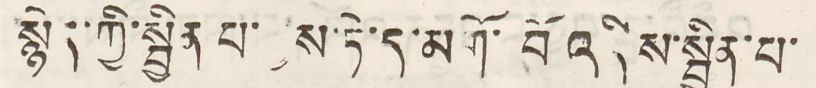སྙེད་ཀྱི་སྦྱིན པ་བྱས་ཏེ་ད་མགོ་བོ་འདིས་སྦྱིན་པ་
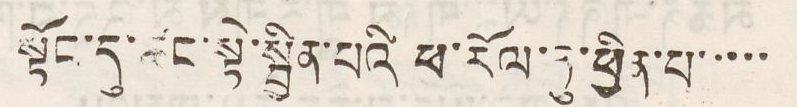སྙོང་དུ་ཚང་སྟེ་སྦྱིན་པའི ཕ་རོལ་རུ་ཕྱིན་པ་་་་་
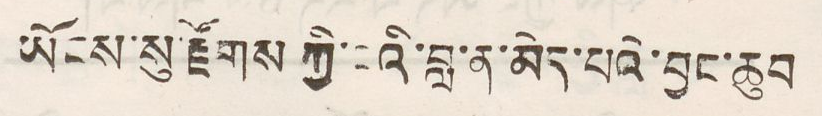ཡོངས་སུ་རྫོགས ཀྱི་ངའི་བླ་ན་མེད་པའི་བྱང་ཆུབ
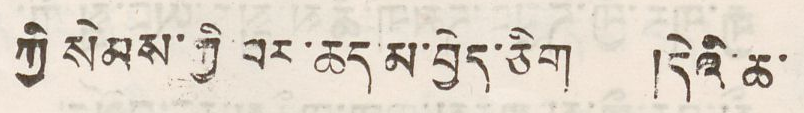ཀྱི སེམས་ཀྱི་བར་ཆད་མ་བྱེད་ཅིག །དེའི་ཆ་
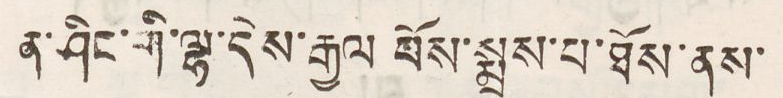ན་ཤིང་གི་ལྷ་དེས་རྒྱལ པོས་སྨྲས་པ་ཐོས་ནས་
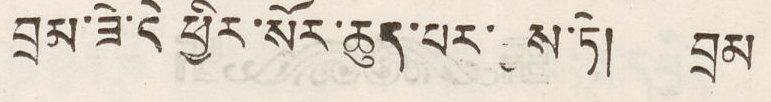བྲམ་ཟེ་དེ ཕྱིར་སོར་ཆུད་པར་བྱས་ཏོ། བྲམ
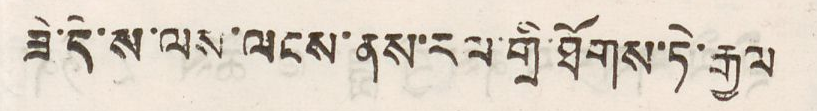སེ་དེ་ས་ལས་ལངས་ནས་རལ་གྲི ཐོགས་ཏེ་རྒྱལ
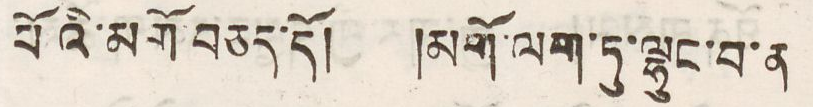པོའི་མགོ་བཅད་དོ། །མགོ་ལག་ཏུ་ལྷུང་བ་ན
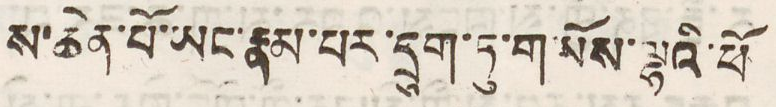ས་ཆེན་པོ་ཡང་རྣམ་པར་དྲུག་ཏུ་གཡོས་ལྷའི་ཕོ
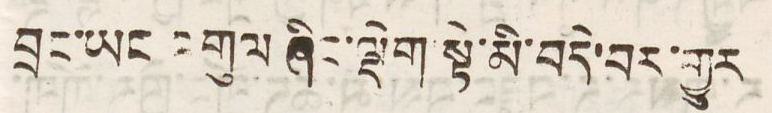བྲང་ཡང འགུལ་ཞིང་སྡེག་སྟེ་མི་བདེ་བར་གྱུར
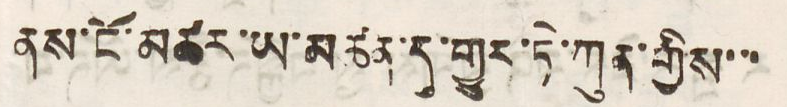ན་སྔོ་མཚར་ཡ་མཚན་དུ་གྱུར་ཏེ་ཀུན་གྱིས་་་
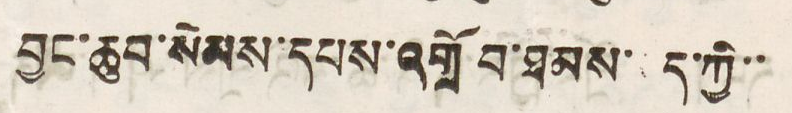བྱང་ཆུབ་སེམས་དཔས་འགྲོ བ་ཐམས་ཅད་ཀྱི་་
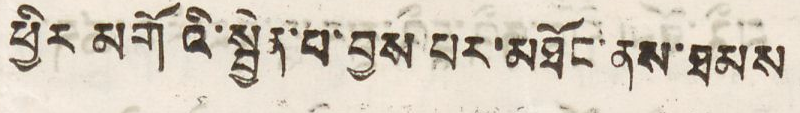ཕྱིར་མགོའི་སྦྱིན་པ་བྱས་པར་མཐོང་ནས་ཐམས
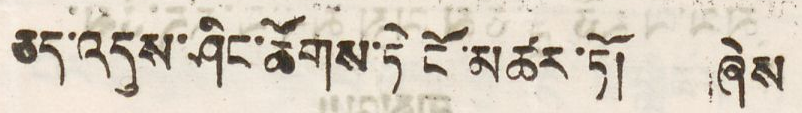ཅད་འདུས་ཤིང་ཚོགས་ཏེ་ངོ་མཚར་ཏོ། ཞེས
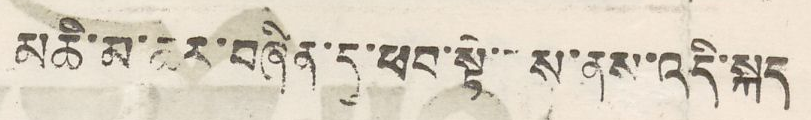མཆི་མ་ཆར་བཞིན་དུ་ཕབ་སྟེ་ ས་ནས་འདི་སྐད
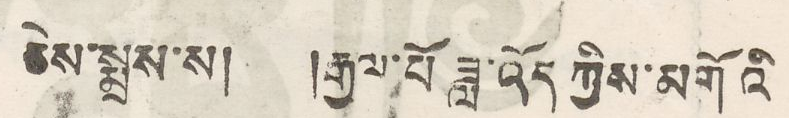ཅེས་སྨྲས་ས། །རྒྱལ་པོ་ ཟླ་འོད་ཀྱིས་མགོའི
